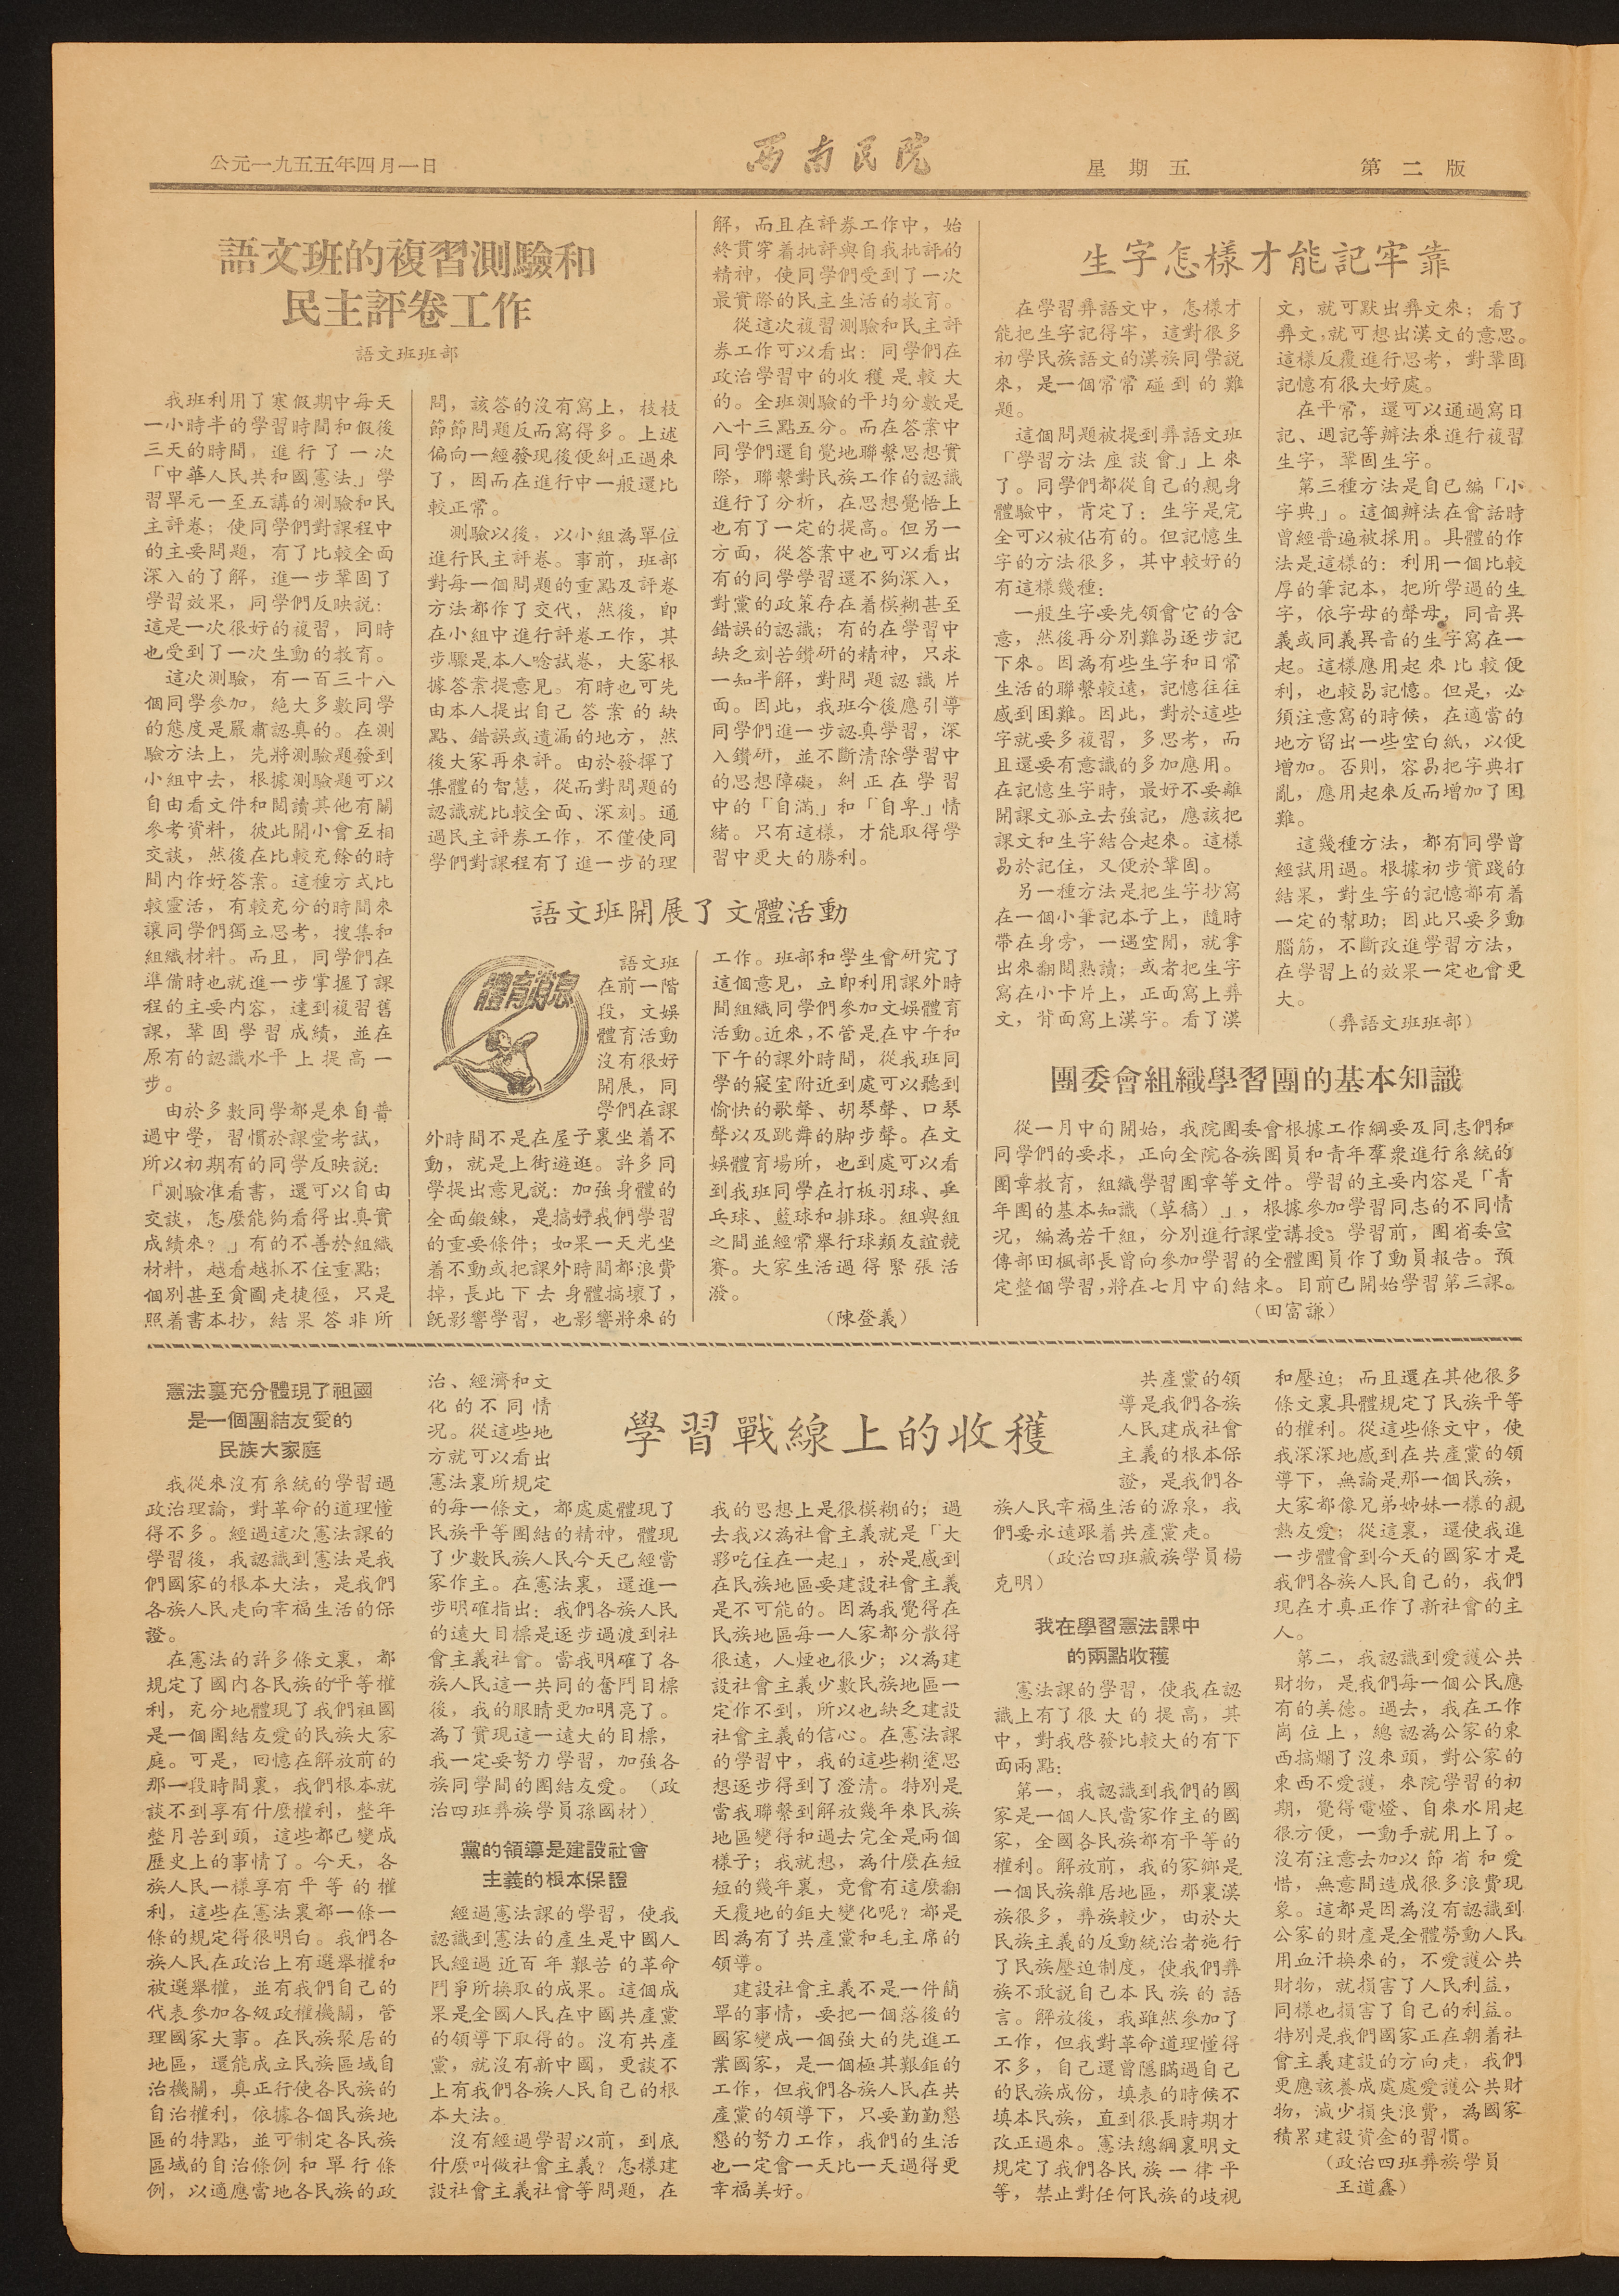公元一九五五年四月一日 西南民院 星期五 第二版
語文班的複習測驗和
民主評卷工作
語文班班部
我班利用了寒假期中每天
一小時半的學習時間和假後
三天的時間，進行了一次
「中華人民共和國憲法」學
習單元一至五講的測驗和民
主評卷；使同學們對課程中
的主要問題，有了比較全面
深入的了解，進一步鞏固了
學習效果，同學們反映說：
這是一次很好的複習，同時
也受到了一次生動的教育。
這次測驗，有一百三十八
個同學參加，絕對大多數同學
的態度是嚴肅認真的。在測
驗方法上，先將測驗題發到
小組中去，根據測驗題可以
自由看文件和閱讀其他有關
參考資料，彼此開小會互相
交談，然後在比較充餘的時
間內作好答案。這種方式比
較靈活，有較充分的時間來
讓同學們獨立思考，搜集和
組織材料。而且，同學們在
準備時也就進一步掌握了課
程的主要內容，達到複習舊
課，鞏固學習成績，並在
原有的認識水平上提高一
步。
由於多數同學都是來自普
過中學，習慣於課堂考試，
所以初期有的同學反映說：
「測驗准看書，還可以自由
交談，怎麼能夠看得出真實
成績來？」有的不善於組織
材料，越看越抓不住重點；
個別甚至貪圖走捷徑，只是
照着書本抄，結果答非所
問，該答的沒有寫上，枝枝
節節問題反而寫得多。上述
偏向一經發現後便糾正過來
了，因而在進行中一般還比
較正常。
測驗以後，以小組為單位
進行民主評卷。事前，班部
對每一個問題的重點及評卷
方法都作了交代，然後，卽
在小組中進行評卷工作，其
步驟是本人唸試卷，大家根
據答案提意見。有時也可先
由本人提出自己答案的缺
點、錯誤或遺漏的地方，然
後大家再來評。由於發揮了
集體的智慧，從而對問題的
認識就比較全面、深刻。通
過民主評券工作，不僅使同
學們對課程有了進一步的理
解，而且在評券工作中，始
終貫穿着批評與自我批判的
精神，使同學們受到了一次
最實際的民主生活的敎教育。
從這次複習測驗和民族評
券工作可以看出：同學們在
政治學習中的收穫是較大
的。全半測驗的平均分數是
八十三點五分。而在答案中
同學們還自覺地聯繫思想實
際，聯繫對民族工作的認識
進行了分析，在思想覺悟上
也有了一定的提高。但另一
方面，從答案中也可以看出
有的同學學習還不夠深入，
對黨的政策存在着模糊甚至
錯誤的認識；有的在學習中
缺乏刻苦鑽研的精神，只求
一知半解，對問題認識片
面。因此，我班今後應引導
同學們進一步認真學習，深
入鑽研，並不斷清除學習中
的思想障礙，糾正在學習
中的「自滿」和「自卑」情
緒。只有這樣，才能取得學
習中更大的勝利。
生字怎樣才能記牢靠
在學習彝語文中，怎樣才
能把生字記得牢，這對很多
初學民族語文的漢族同學說
來，是一個常常碰到的難
題。
這個問題被提到彝語文班
「學習方法座談會」上來
了。同學們都從自己的親身
體驗中，肯定了：生字是完
全可以被佔有的。但記憶生
字的方法很多，期中較好的
有這樣幾種：
一般生字要先領會它的含
意，然後再分別難易逐步記
下來。因為有些生字和日常
生活得聯繫較遠，記憶往往
感到困難。因此，對於這些
字就要多複習，多思考，而
且還要有意識的多加應用。
在記憶生字時，最好不要離
開課文孤立去強記，應該把
課文和生字結合起來。這樣
易於記住，又便於鞏固。
另一種方法是把生字抄寫
在一個小筆記本子上，隨時
帶在身旁，一遇空閒，就拿
出來翻閱熟讀；或者把生字
寫在小卡片上，證明寫上彝
文，背面寫上漢字。看了漢
文，就可默出彝文來；看了
彝文，就可想出漢文的意思。
這樣反覆進行思考，對鞏固
記憶有很大好處。
在平常，還可以通過寫日
記、週記等辦法來進行複習
生字，鞏固生字。
第三種方法是自己編「小
字典」。這個辦法在會話時
曾經普遍被採用。具體的作
法是這樣的：利用一個比較
厚的筆記本，把所學過的生
字，依字母的聲母，同音異
義或同義異音的生字寫在一
起。這樣應用起來比較便
利，也較易記憶。但是，必
須注意寫的時候，在適當的
地方留出一些空白紙，以便
增加。否則，容易把字典打
亂，應用起來反而增加了困
難。
這幾種方法，都有同學曾
經試用過。根據初步實踐的
結果，對生字的記憶都有着
一定的幫助；因此只要多動
腦筋，不斷改進學習方法，
在學習上的效果一定也會更
大。
（彝語文班班部）
語文班開展了文體活動
體育消息
語文班
在前一階
段，文娛
體育活動
沒有很好
開展，同
學們在課
外時間不是在屋子裏坐着不
動，就是上街遊逛。許多同
學提出意見說：加強身體的
全面鍛鍊，是搞好我們學習
的重要條件；如果一天光坐
着不動或把課外時間都浪費
掉，長此下去身體搞壞了，
旣影響學習，也影響將來的
工作。班部和學生會研究了
這個意見，立卽利用課外時
間組織同學們參加文娛體育
活動。進來，不管是在中午和
下午的課外時間，從我班同
學的寢室附近到處可以聽到
愉快的歌聲、胡琴聲、口琴
聲以及跳舞的腳步聲。在文
娛體育場所，也到處可以看
到我班同學在打板羽球、乒
乓球、籃球和排球。組與組
之間並經常舉行球類友誼競
賽。大家生活過得緊張活
潑。
（陳登義）
團委會組織學習團的基本知識
從一月中旬開始，我院團委會根據工作綱要及同志們和
同學們的要求，正向全院各族團員和青年羣衆進行系統的
團章教育，組織學習團章等文件。學習的主要內容是「青
年團的基本知識（草稿）」，根據參加學習同志的不同情
況，編為若干組，分別進行課堂講授。學習前，團省委宣
傳部田楓部長曾向參加學習的全體團員作了動員報告。預
定整個學習，將在七月中旬結束。目前已開始學習第三課。
（田富謙）
學習戰線上的收穫
憲法裏充分體現了祖國
是一個團結友愛的
民族大家庭
我從來沒有系統 學習過
政治理論，對革命的道理懂
得不多。經過這次憲法課的
學習後，我認識到憲法是我
們國家的根本大法，是我們
各族人民走向幸福生活的保
證。
在憲法的許多條文裏，都
規定了國內各民族的平等權
利，充分地體現了我們祖國
是一個團結友愛的民族大家
庭。可是，囘憶在解放前的
那一段時間裏，我們根本就
談不到享有什麼權利，整年
整月苦到頭，這些都已變成
歷史上的事情了。今天，各
族人民一樣享有平等的權
利，這些在憲法裏都一條一
條的規定得很明白。我們各
族人民在政治上有選舉權和
被選舉權，並有我們自己的
代表參加各級政權機關，管
理國家大事。在民族聚居的
地區，還能成立民族區域自
治機關，真正行使各民族的
自治權利，依據各個民族地
區的特點，並可制定各民族
區域的自治條例和單行條
例，以適應當地各民族的政
治、經濟和文
化的不同情
況。從這些地
方就可以看出
憲法裏所規定
的每一條文，都處處體現了
民族平等團結的精神，體現
了少數民族人民今天已經當
家作主。在憲法裏，還進一
步明確指出：我們各族人民
的遠大目標是逐步過渡到社
會主義社會。當我們明確了各
族人民這一共同的奮鬥目標
後，我的眼睛更加明亮了。
為了實現這一遠大的目標，
我一定要努力學習，加強各
族同學間的團結友愛。
（政
治四班彝族學員孫國材）
黨的領導是建設社會
主義的根本保證
經過憲法課的學習，使我
認識到憲法的產生是中國人
民經過近百年艱苦的革命
鬥爭所換取的成果。這個成
果是全國人民在中國共產黨
的領導下取得的。沒有共產
黨，就沒有新中國，更談不
上有我們各族人民自己的根
本大法。
沒有經過學習以前，到底
什麼叫做社會主義？怎樣建
設社會主義社會等問題，在
我的思想上是很模糊的；過
去我以為社會主義就是「大
夥吃住在一起」，於是感到
在民族地區要建設社會主義
是不可能的。因爲我覺得在
民族地區每一人家都分散得
很遠，人煙也很少；以為建
設社會主義少數民族地區一
定作不到，所以也缺乏建設
社會主義的信心。在憲法課
的學習中，我的這些糊塗思
想逐步得到了澄清。特別是
當我聯繫到解放幾年來民族
地區變得和過去完全是兩個
樣子；我就想，為什麼在短
短的幾年裏，竟會有這麼翻
天覆地的鉅大變化呢？都是
因為有了共產黨和毛主席的
領導。
建設社會主義不是一件簡
單的事情，要把一個落後的
國家變成一個強大的先進工
業國家，是一個及其艱鉅的
工作，但我們各族人民在共
產黨的領導下，只要勤勤懇
懇的努力工作，我們的生活
也一定會一天比一天過得更
幸福美好。
共產黨的領
導是我們各族
人民建成社會
主義的根本保
證，是我們各
族人民幸福生活的源泉，我
們要永遠跟着共產黨走。
（政治司班藏族學員楊
克明）
我在學習憲法課中
的兩點收穫
憲法課的學習，使我在認
識上有了很大的提高，其
中，對我啓發比較大的有下
面兩點：
第一，我認識到我們的國
家是一個人民當家作主的國
家，全國各民族都有平等的
權利。解放前，我的家鄉是
一個民族雜居地區，那裏漢
族很多，彝族較少，由於大
民族主義的反動統治者施行
了民族壓迫制度，使我們彝
族不敢說自己本民族的語
言。解放後，我雖然參加了
工作，但我對革命道理懂得
不多，自己還曾隱瞞過自己
的民族成份，填表的時候不
填本民族，直到很長時期才
改正過來。憲法總綱裏明文
規定了我們各民族一律平
等，禁止對任何民族的歧視
和壓迫；而且還在其他很多
條文裏具體規定了民族平等
的權利。從這些條文中，使
我深深地感到在共產黨的領
導下，無論是那一各民族，
大家都像兄弟姊妹一樣的親
熱友愛；從這裏，還使我進
一步體會到今天的國家才是
我們各族人民自己的，我們
現在才真正作了新社會的主
人。
第二，我認識到愛護公共
財物，使我們每一個公民應
有的美德。過去，我在工作
崗位上，總認為公家的東
西搞爛了沒來頭，對公家的
東西不愛護，來院學習的初
期，覺得電燈、自來水用起
很方便，一動手就用上了。
沒有注意去加以節省和愛
惜，無意間造成很多浪費現
象。這都是因為沒有認識到
公家的財產是全體勞動人民
用血汗換來的，不愛護公共
財物，就損害了人民利益，
同樣也損害了自己的利益。
特別是我們國家正在朝着社
會主義建設的方向走，我們
更應該養成處處愛護公共財
物，減少損失浪費，為國家
積累建設資金的習慣。
（政治四班彝族學員
王道鑫）
